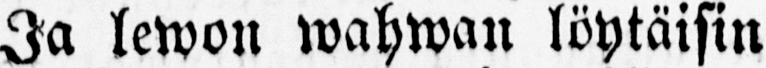Ja lewon wahwan löytäisin
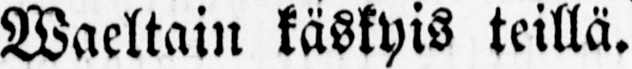Waeltain käskyis teillä.
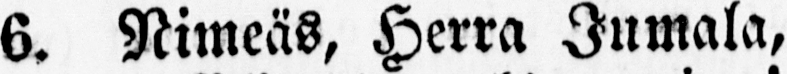6. Nimeäs, Herra Jumala,
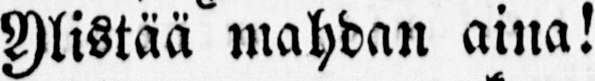Ylistää mahdan aina!
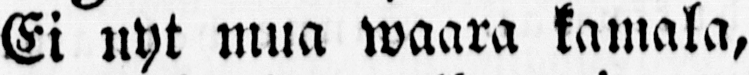Ei nyt mua waara kamala,
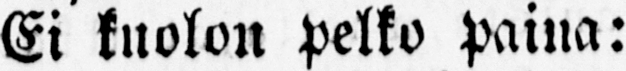Ei kuolon pelko paina:
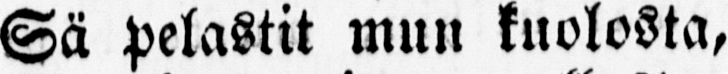Sä pelastit mun kuolosta,
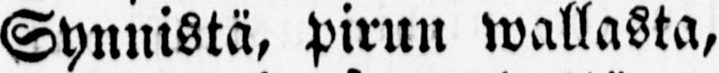Synnistä, pirun wallasta,
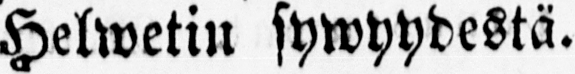Helwetin sywyydestä.
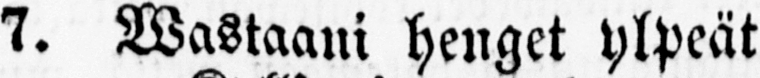7. Wastaani henget ylpeät
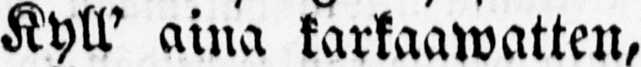Kyll' aina karkaawatten,
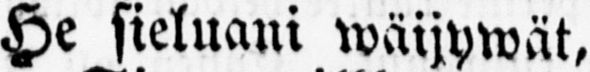He sieluani wäijywät,
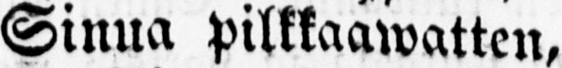Sinua Pilkkaawatten,
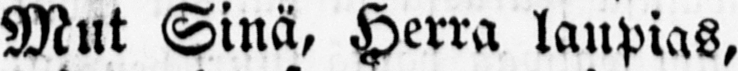Mut Sinä, Herra laupias,
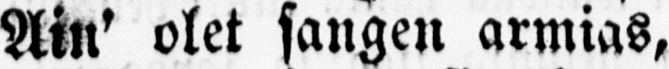Ain' olet sangen armias,
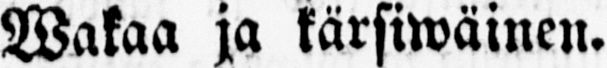Wakaa ja kärsiwäinen.
